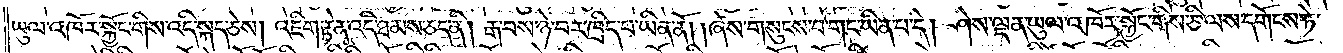ཡུལ་འཁོར་སྐྱོང་གིས་འདི་སྐད་ཅེས། འཇིག་རྟེན་འདི་ཐམས་ཅད་ནི། རྒ་བས་ཉེ་བར་ཁྲིད་པ་ཡིན་ནོ། །ཞེས་གསུངས་པ་གང་ཡིན་པ་དེ། ཤེས་ལྡན་ཡུལ་འཁོར་སྐྱོང་གིས་ཅི་ལས་དགོངས་ཏེ་
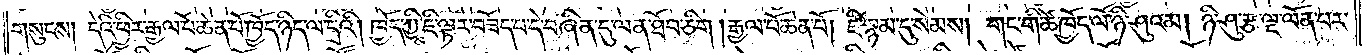གསུངས། དེའི་ཕྱིར་རྒྱལ་པོ་ཆེན་པོ་ཁྱོད་ཉིད་ལ་དྲིའི། ཁྱོད་ཀྱིས་ཇི་ལྟར་བཟོད་པ་དེ་བཞིན་དུ་ལན་ཐོབ་ཅིག །རྒྱལ་པོ་ཆེན་པོ། ཇི་སྙམ་དུ་སེམས། གང་གི་ཚེ་ཁྱོད་ལོ་ཉི་ཤུའམ། ཉི་ཤུ་རྩ་ལྔ་ལོན་པར་
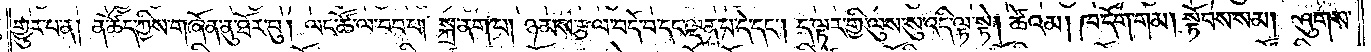གྱུར་པ་ན། ན་ཚོད་ཀྱིས་གཞོན་ནུ་ཐོར་བུ། ལང་ཚོ་ལ་བབ་པ། སྐྲ་ནག་པ། ཉམས་རྩལ་བདོ་བ་དང་ལྡན་པ་དེ་དང༌། ད་ལྟར་གྱི་ལུས་སུ་འདི་ལྟ་སྟེ། ཚེའམ། ཁ་དོག་གམ། སྟོབས་སམ། ཤུགས་
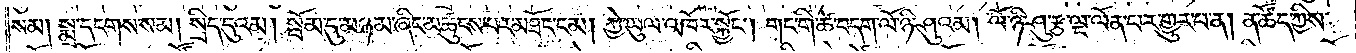སམ། སྨྲ་དངགས་སམ། སྲིད་དུའམ། སྦོམ་དུ་མཉམ་ཞིང་མཚུངས་པར་མཐོང་ངམ། ཀྱེ་ཡུལ་འཁོར་སྐྱོང༌། གང་གི་ཚེ་བདག་ལོ་ཉི་ཤུའམ། ལོ་ཉི་ཤུ་རྩ་ལྔ་ལོན་པར་གྱུར་པ་ན། ན་ཚོད་ཀྱིས་
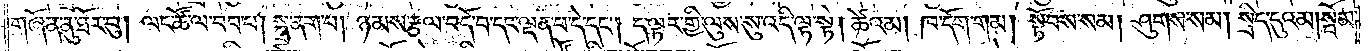གཞོན་ནུ་ཐོར་བུ། ལང་ཚོ་ལ་བབ་པ། སྐྲ་ནག་པ། ཉམས་རྩལ་བདོ་བ་དང་ལྡན་པ་དེ་དང༌། ད་ལྟར་གྱི་ལུས་སུ་འདི་ལྟ་སྟེ། ཚེའམ། ཁ་དོག་གམ། སྟོབས་སམ། ཤུགས་སམ། སྲིད་དུའམ། སྦོམ་
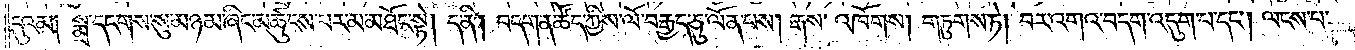དུའམ། སྨྲ་དངགས་སུ་མཉམ་ཞིང་མཚུངས་པར་མ་མཐོང་སྟེ། ད་ནི། བདག་ན་ཚོད་ཀྱིས་ལོ་བརྒྱད་ཅུ་ལོན་པས། རྒས་འཁོགས། གཏུགས་ཏེ། བར་འགའ་བདག་འདུག་པ་དང༌། ལངས་པ་
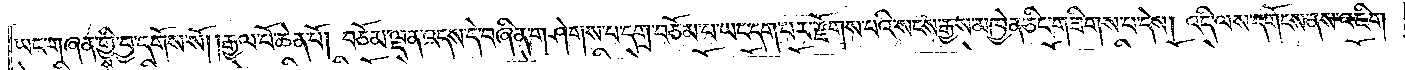ཡང་གཞན་གྱི་བྱ་དགོས་སོ། །རྒྱལ་པོ་ཆེན་པོ། བཅོམ་ལྡན་འདས་དེ་བཞིན་གཤེགས་པ་དགྲ་བཅོམ་པ་ཡང་དག་པར་རྫོགས་པའི་སངས་རྒྱས་མཁྱེན་ཅིང་གཟིགས་པ་དེས། འདི་ལས་དགོངས་ནས་འཇིག་
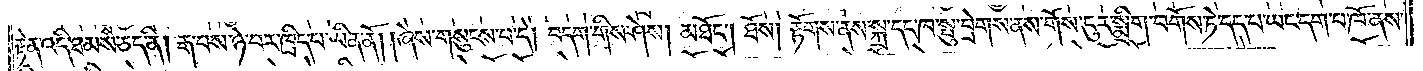རྟེན་འདི་ཐམས་ཅད་ནི། རྒ་བས་ཉེ་བར་ཁྲིད་པ་ཡིན་ནོ། །ཞེས་གསུངས་པ་དེ། བདག་གིས་ཤེས། མཐོང༌། ཐོས། རྟོགས་ནས་སྐྲ་དང་ཁ་སྤུ་བྲེགས་ནས་གོས་ངུར་སྨྲིག་བགོས་ཏེ་དད་པ་ཡང་དག་པ་ཁོ་ནས་
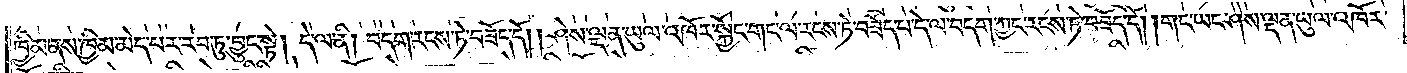ཁྱིམ་ནས་ཁྱིམ་མེད་པར་རབ་ཏུ་བྱུང་སྟེ། དེ་ལ་ནི། བདག་རངས་ཏེ་བཟོད་དོ། །ཤེས་ལྡན་ཡུལ་འཁོར་སྐྱོང་གང་ལ་རངས་ཏེ་བཟོད་པ་དེ་ལ་བདག་ཀྱང་རངས་ཏེ་བཟོད་དོ། །གང་ཡང་ཤེས་ལྡན་ཡུལ་འཁོར་
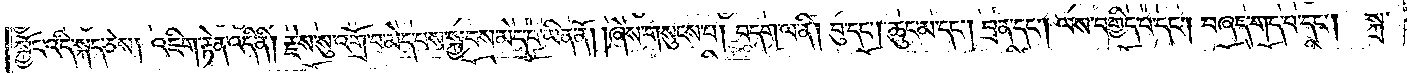སྐྱོང་འདི་སྐད་ཅེས། འཇིག་རྟེན་འདི་ནི། རྗེས་སུ་འགྲོ་བ་མེད་པས་སྐྱབས་མེད་པ་ཡིན་ནོ། །ཞེས་གསུངས་པ། བདག་ལ་ནི། བུ་དང༌། ཆུང་མ་དང༌། བྲན་དང༌། ལས་བགྱིད་པ་དང༌། བཞད་གད་པ་དང༌། སྐྲ་
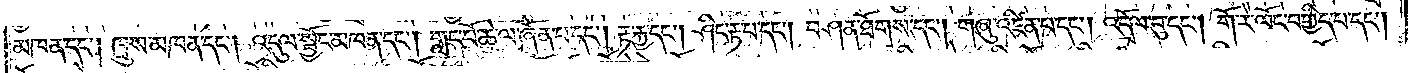མཁན་དང༌། ཁྲུས་མཁན་དང༌། འདུལ་སྦྱོང་མཁན་དང༌། གླང་པོ་ཆེ་ལ་ཞོན་པ་དང༌། རྟ་རྐྱ་དང༌། ཤིང་རྟ་པ་དང༌། བཤན་ཐོགས་དང༌། གཞུ་འཛིན་པ་དང༌། འདྲོལ་བུ་དང༌། གོ་རེ་ལོང་བགྱིད་པ་དང༌།
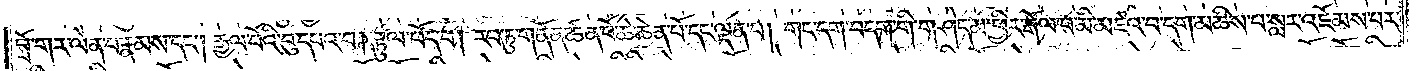བྲོ་གར་ལེན་པ་རྣམས་དང༌། རྒྱལ་པོའི་བུ་དཔའ་བ། རྟུལ་ཕོད་པ། རབ་ཏུ་གནོན་ཚན་པོ་ཆེ་ཆེན་པོ་དང་ལྡན་པ། གང་དག་བདག་གི་གཤེད་མ་ཕྱིར་རྒོལ་བ་མི་མཛའ་བ་དག་མཆིས་པ་སླར་འཇོམས་པར་
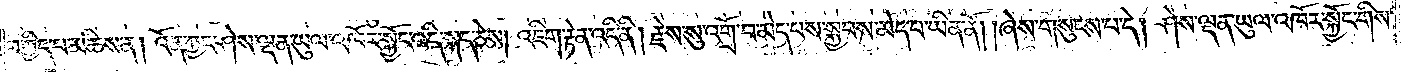བགྱིད་པ་མཆིས་ན། འོན་ཀྱང་ཤེས་ལྡན་ཡུལ་འཁོར་སྐྱོང་འདི་སྐད་ཅེས། འཇིག་རྟེན་འདི་ནི། རྗེས་སུ་འགྲོ་བ་མེད་པས་སྐྱབས་མེད་པ་ཡིན་ནོ། །ཞེས་གསུངས་པ་དེ། ཤེས་ལྡན་ཡུལ་འཁོར་སྐྱོང་གིས་
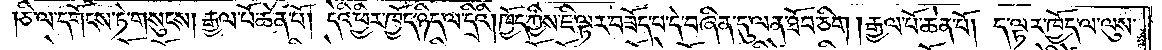ཅི་ལ་དགོངས་ཏེ་གསུངས། རྒྱལ་པོ་ཆེན་པོ། དེའི་ཕྱིར་ཁྱོད་ཉིད་ལ་དྲིའི། ཁྱོད་ཀྱིས་ཇི་ལྟར་བཟོད་བ་དེ་བཞིན་དུ་ལན་ཐོབ་ཅིག །རྒྱལ་པོ་ཆེན་པོ། ད་ལྟར་ཁྱོད་ལ་ལུས་
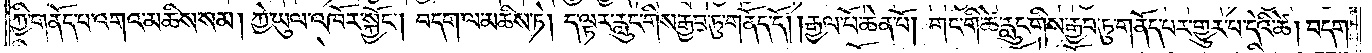ཀྱི་གནོད་པ་འགའ་མཆིས་སམ། ཀྱེ་ཡུལ་འཁོར་སྐྱོང༌། བདག་ལ་མཆིས་ཏེ། ད་ལྟར་རླུང་གིས་རྒྱབ་ཏུ་གནོད་དོ། །རྒྱལ་པོ་ཆེན་པོ། གང་གི་ཚེ་རླུང་གིས་རྒྱབ་ཏུ་གནོད་པར་གྱུར་པ་དེའི་ཚེ། བདག་
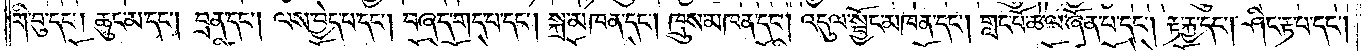གི་བུ་དང༌། ཆུང་མ་དང༌། བྲན་དང༌། ལས་བྱེད་པ་དང༌། བཞད་གད་པ་དང༌། སྐྲ་མཁན་དང༌། ཁྲུས་མཁན་དང༌། འདུལ་སྦྱོང་མཁན་དང༌། གླང་པོ་ཆེ་ལ་ཞོན་པ་དང༌། རྟ་རྐྱ་དང༌། ཤིང་རྟ་པ་དང་
